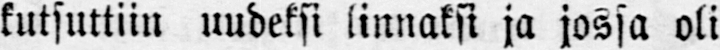kutsuttiin uudeksi linnaksi ja jossa oli
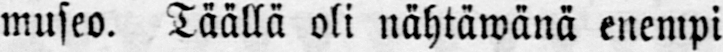museo. Täällä oli nähtäwänä enempi
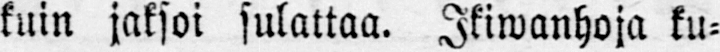kuin jaksoi sulattaa. Ikiwanhoja ku-
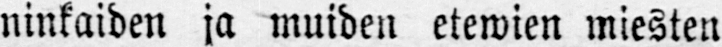ninkaiden ja muiden etewien miesten
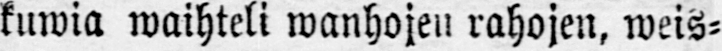kuwia waihteli wanhojen rahojen, weis-
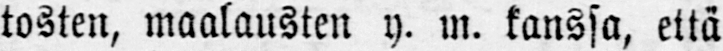tosten, maalausten y. m. kanssa, että
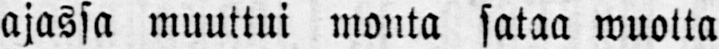ajassa muuttui monta sataa wuotta
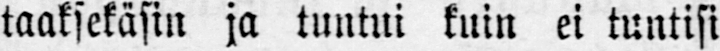taaksekäsin ja tuntui kuin ei tuntisi
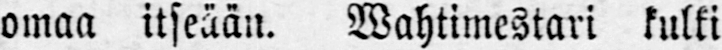omaa itseään. Wahtimestari kulki
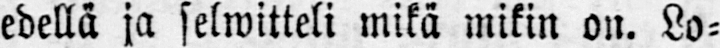edellä ja selwitteli mikä mikin on. Lo-
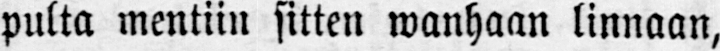pulta mentiin sitten wanhaan linnaan,
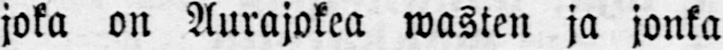joka on Aurajokea wasten ja jonka
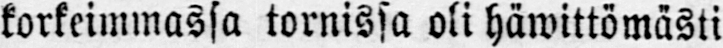korkeimmassa tornissa oli häwittömästi
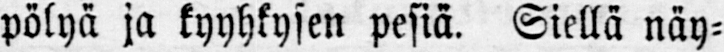pölyä ja kyyhkysen pesiä. Siellä näy-
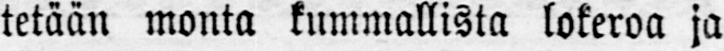tetään monta kummallista lokeroa ja
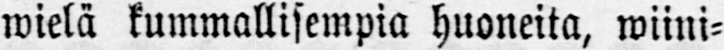wielä kummallisempia huoneita, wiini-
